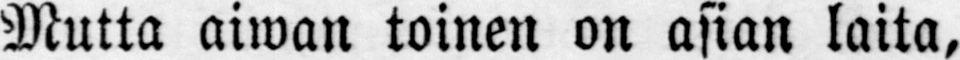Mutta aiwan toinen on asian laita,
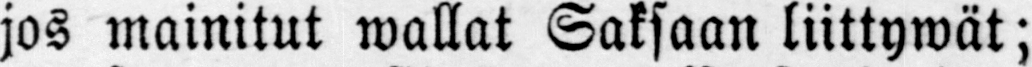jos mainitut wallat Saksaan liittywät;
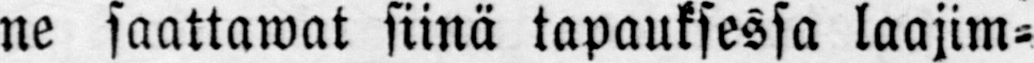ne saattawat siinä tapauksessa laajim-
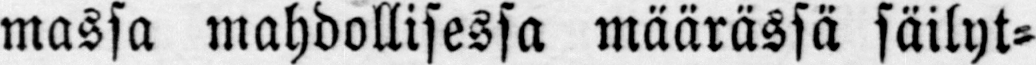massa mahdollisessa määrässä säilyt-
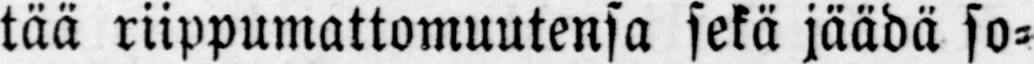tää riippumattomuutensa sekä jäädä so-
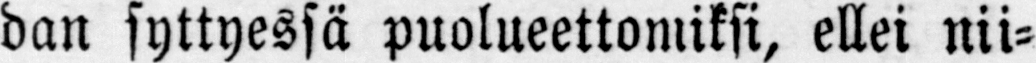dan syttyessä puolueettomiksi, ellei nii-
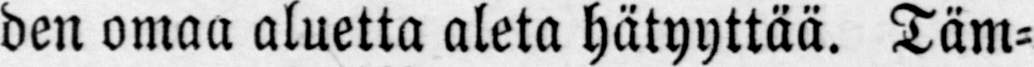den omaa aluetta aleta hätyyttää. Täm-
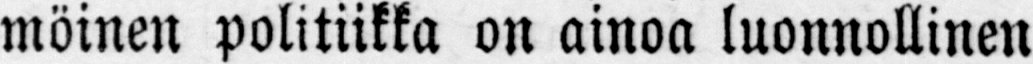möinen politiikka on ainoa luonnollinen
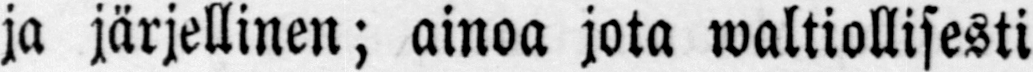ja järjellinen; ainoa jota waltiollisesti
